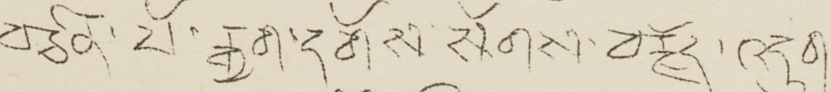བཙན་པོ་རྒྱག་དགོས་སོགས་བརྗོད་འདུག།།
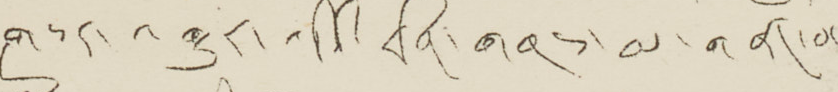གསར་འགྱུར་འདིའི་རིན་གནས་མ་གནང་བ་
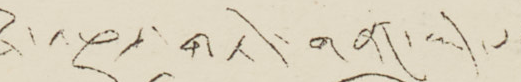རྣམས་ནས་འདི་འབྱོར་འཕྲལ་གཏོད་གནང་ཡོད་པ་
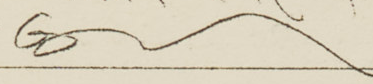ཞུ།
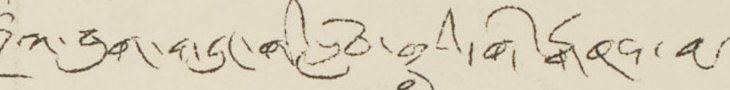༈ཀ་སྤུག་གཞུང་གི་སློབ་གྲའི་དགེ་རྒན་ནས་
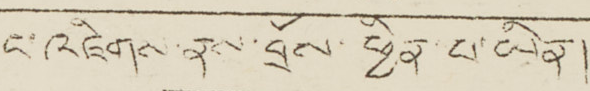ང་འཇིགས་ནས་བྲོས་ཕྱིན་པ་ཡིན།
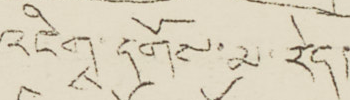འཇིགྶ་དགོས་མ་རེད།
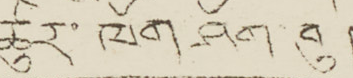ཚུར་ལོག ཐོག་བུ།
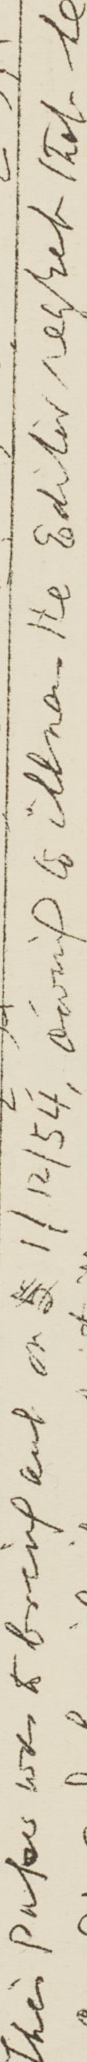This paper was to bring and on 1/12/54, owning to illnan the editor reghet that be
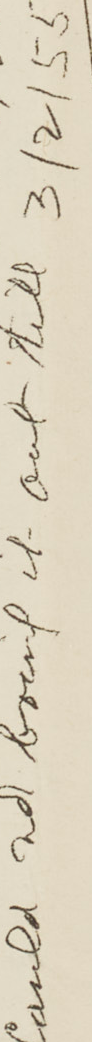could  bring it out till 3/2/55
